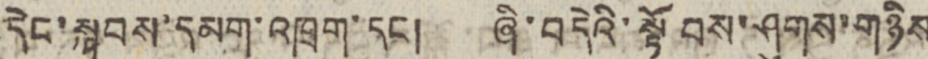དེང་སྐབས་དམག་འཁྲུག་དང། ཞི་བདེའི་སྟོབས་ཤུགས་གཉིས
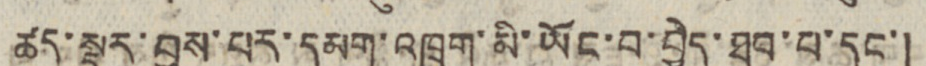ཚད་སྡུར་བྱས་པར་དམག་འཁྲུག་མི་ཡོང་བ་བྱེད་ཐུབ་པ་དང་།
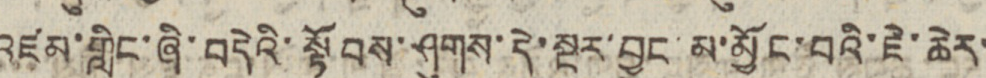འཛམ་གླིང་ཞི་བདེའི་སྟོབས་ཤུགས་དེ་སྔར་བྱུང་མ་མྱོང་བའི་ཇེ་ཆེར་
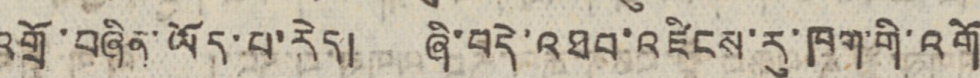འགྲོ་བཞིན་ཡོད་པ་རེད། ཞི་བདེ་འཐབ་འཛིངས་རུ་ཁག་གི་འགོ
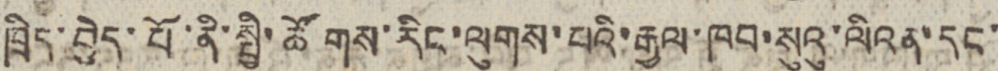ཁྲིད་བྱེད་པོ་ནི་སྤྱི་ཚོགས་རིང་ལུགས་པའི་རྒྱལ་ཁབ་སུའུ་ལིའན་དང་
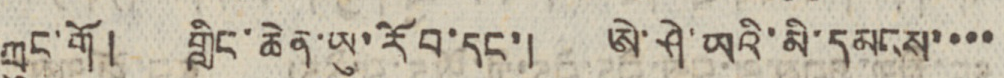ཀྲུང་གོ། གླིང་ཆེན་ཡུ་རོབ་དང་། ཨེ་ཤེ་ཡའི་མི་དམངས་་་་
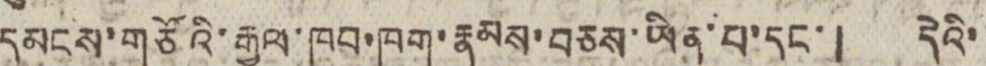དམངས་གཙོའི་རྒྱལ་ཁབ་ཁག་རྣམས་བཅས་ཡིན་པ་དང་། དེའི་་
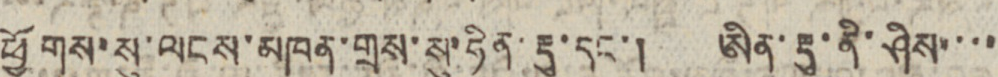ཕྱོགས་སུ་ལངས་མཁན་གྲས་སུ་ཧིན་རྡུ་དང་། ཨིན་རྡུ་ནི་ཤིས་་་་
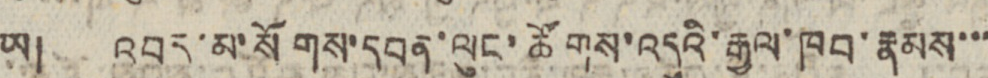ཡ། འབར་མ་སོགས་དབན་ལུང་ཚོགས་འདུའི་རྒྱལ་ཁབ་རྣམས་་་
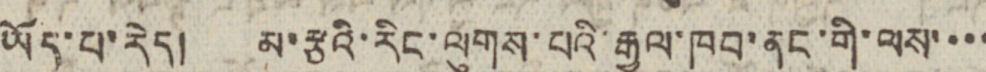ཡོད་པ་རེད། མ་རྩའི་རིང་ལུགས་པའི་རྒྱལ་ཁབ་ནང་གི་ལས་་་་
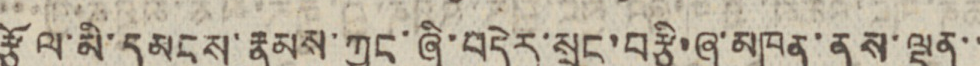རྩོལ་མི་དམངས་རྣམས་ཀྱང་ཞི་བདེར་སྲུང་བརྩི་ཞུ་མཁན་ནུས་ལྡན་་
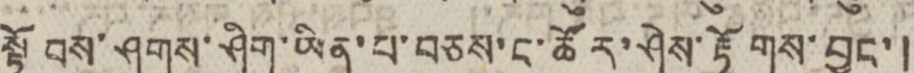སྟོབས་ཤུགས་ཤིག་ཡིན་པ་བཅས་ང་ཚོར་ཤེས་རྟོགས་བྱུང་།
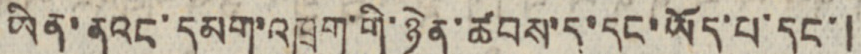ཡིན་ནའང་དམག་འཁྲུག་གི་ཉེན་ཚབས་ད་དུང་ཡོད་པ་དང་།
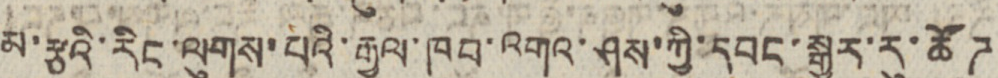མ་རྩའི་རིང་ལུགས་པའི་རྒྱལ་ཁབ་འགའ་ཤས་ཀྱི་དབང་སྒྱུར་རུ་ཚོཊ
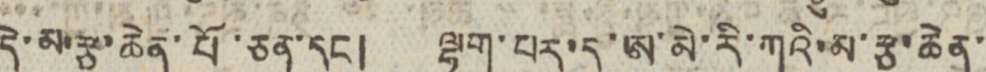དེ་མ་རྩ་ཆེན་པོ་ཅན་དང། ལྷག་པར་དུ་ཨ་མེ་རི་ཀའི་མ་རྩ་ཆེན་
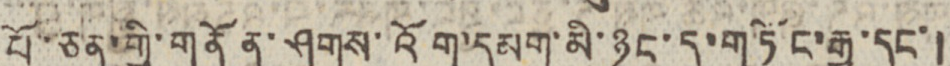པོ་ཅན་གྱི་གནོན་ཤུགས་འོག་དམག་མི་ཉུང་དུ་གཏོང་རྒྱུ་དང་།
